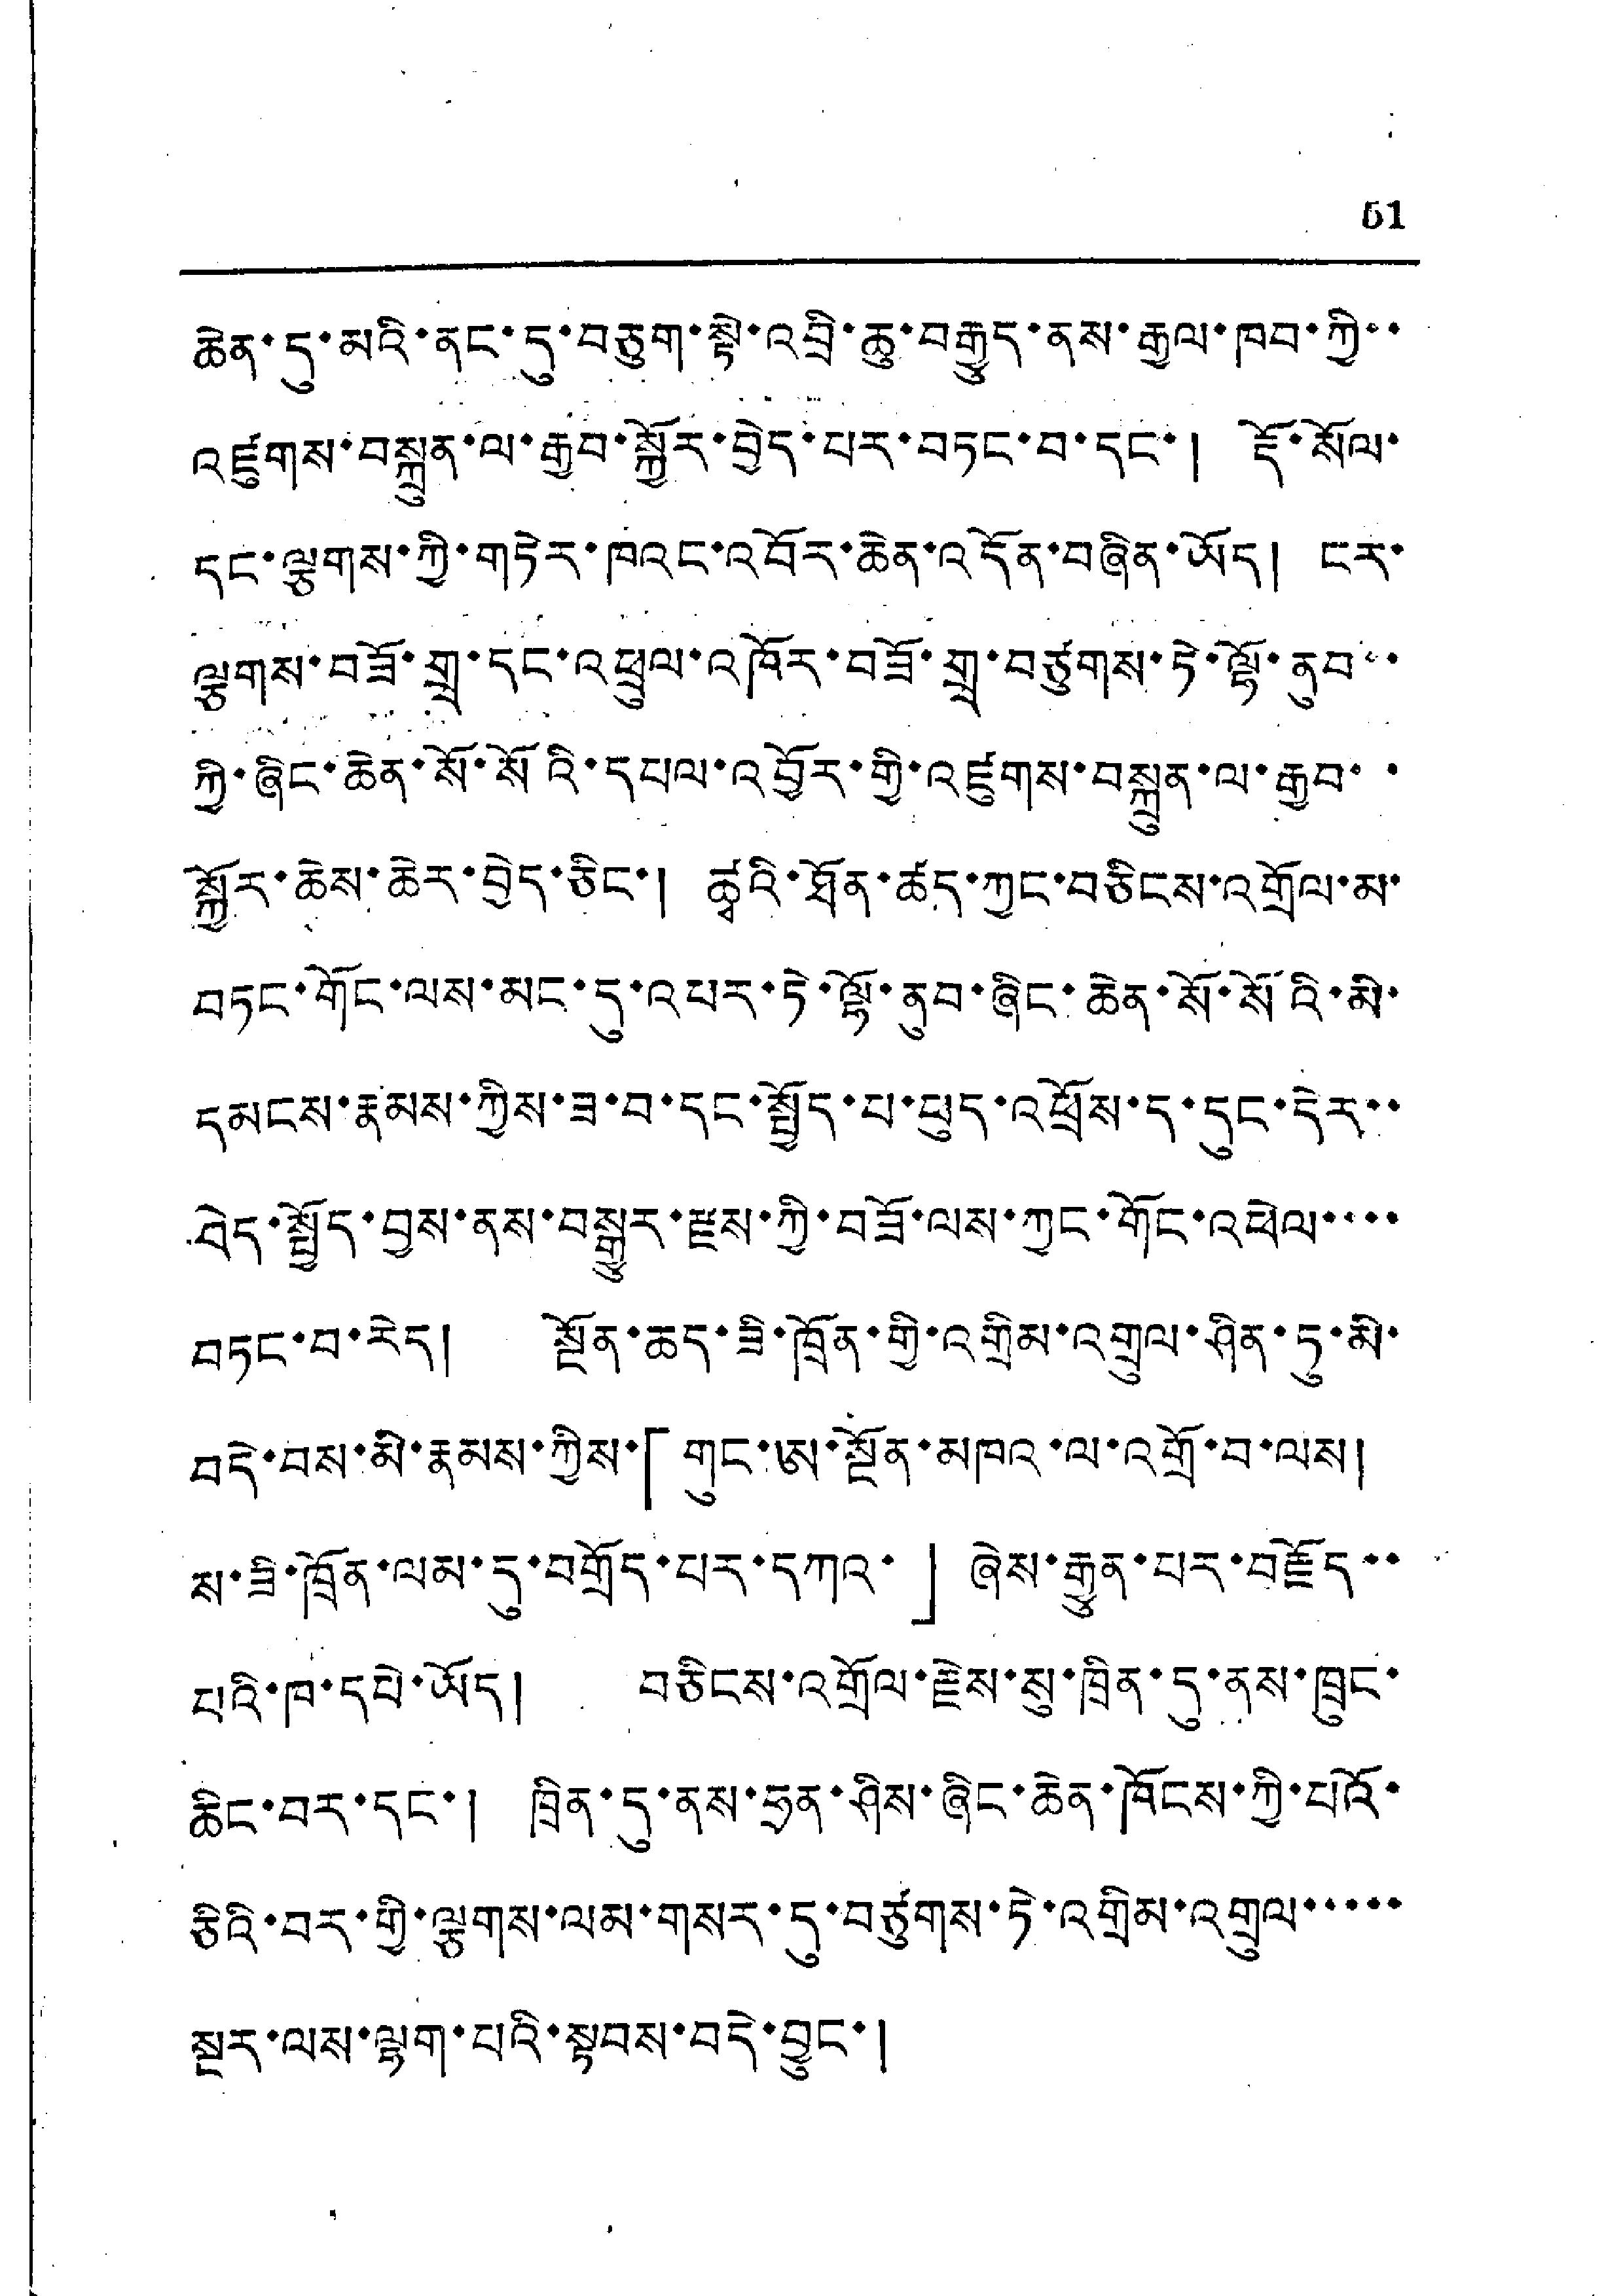51
ཆེན་དུ་མའི་ནང་དུ་བཅུག་སྟེ་འབྲི་ཆུ་བརྒྱུད་ནས་རྒྱལ་ཁབ་ཀྱི་་
འཛུགས་བསྐྲུན་ལ་རྒྱབ་སྐྱོར་བྱེད་པར་བཏང་བ་དང་། རྡོ་སོལ་
དང་ལྕགས་ཀྱི་གཏེར་ཁའང་འབོར་ཆེན་འདོན་བཞིན་ཡོད། ངར་
ལྕགས་བཟོ་གྲྭ་དང་འཕྲུལ་འཁོར་བཟོ་གྲྭ་བཙུགས་ཏེ་ལྟོ་ནུབ་་་
ཀྱི་ཞིང་ཆེན་སོ་སོའི་དཔལ་འབྱོར་གྱི་འཛུགས་བསྐྲུན་ལ་རྒྱབ་་
སྐོར་ཆེས་ཆེར་བྱེད་ཅིང་། ཚྭའི་ཐོན་ཚད་ཀྱང་བཅིངས་འགྲོལ་མ་
བཏང་གོང་ལས་མང་དུ་འཔར་ཏེ་ལྷོ་ནུབ་ཞིང་ཆེན་སོ་སོའི་མི་
དམངས་རྣམས་ཀྱིས་ཟ་བ་དང་སྤྱོད་པ་ཕུད་འཕྲོས་ད་དུང་དེར་་
བེད་སྤྱོད་བྱས་ནས་བསྒྱུར་རྫས་ཀྱི་བཟོ་ལས་ཀྱང་གོང་འཕེལ་་་་
བཏང་བ་རེད། སྔོན་ཆད་ཟི་ཁྲོན་གྱི་འགྲིམ་འགྲུལ་ཤིན་ཏུ་མི་
བདེ་བས་མི་རྣམས་ཀྱིས་「གུང་ཨ་སྔོན་མཁའ་ལ་འགྲོ་བ་ལས།
ས་ཟི་ཁྲོན་ལམ་དུ་བགྲོད་པར་དཀའ་」ཞེས་རྒྱུན་པར་བརྗོད་་
པའི་ཁ་དཔེ་ཡོད། བཅིངས་འགྲོལ་རྗེས་སུ་ཁྲིན་དུ་ནས་ཁྲུང་
ཆིང་བར་དང་། ཁྲིན་དུ་ནས་ཧྲན་ཤིས་ཞིང་ཆེན་ཁོངས་ཀྱི་པའོ་
ཅིའི་བར་གྱི་ལྕགས་ལམ་གསར་དུ་བཙུགས་ཏེ་འགྲིམ་འགྲུལ་་་་་
སྔར་ལས་ལྷག་པའི་སྟབས་བདེ་བྱུང་།
